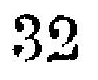32
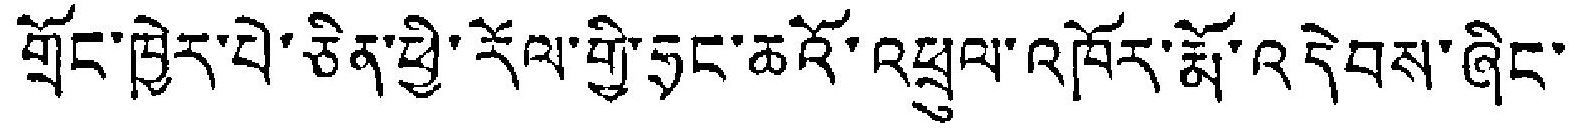གྲོང་ཁྱེར་པེ་ཅིན་ཕྱེ་རོལ་གྱི་ཧྲང་ཆའི་འཕྲལ་འཁོར་པོ་འདེབས་ཞིང་
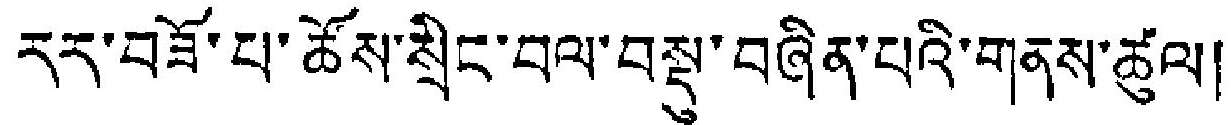རར་བཟོ་པ་ཚོས་སྲིང་བལ་བསྡུ་བཞིན་པའི་གནས་ཚུལ།
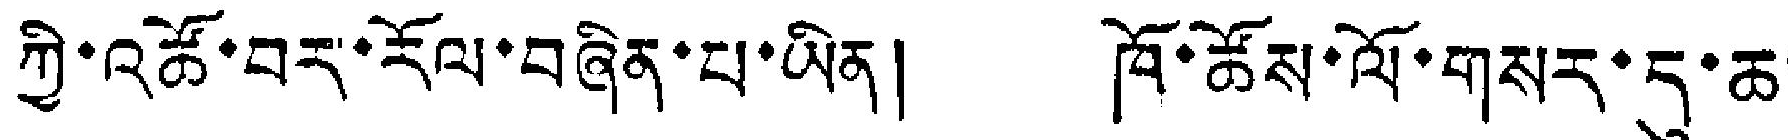ཀྱི་འཚོ་བར་རོལ་བཞིན་པ་ཡིན། ཁོ་ཚོས་ལོ་གསར་དུ་ཆ་
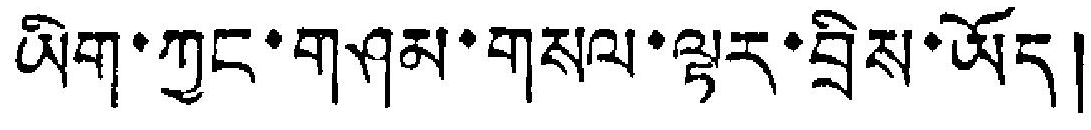ཡིག་ཀྱང་གཤམ་གསལ་ལྟར་བྲིས་ཡོད།
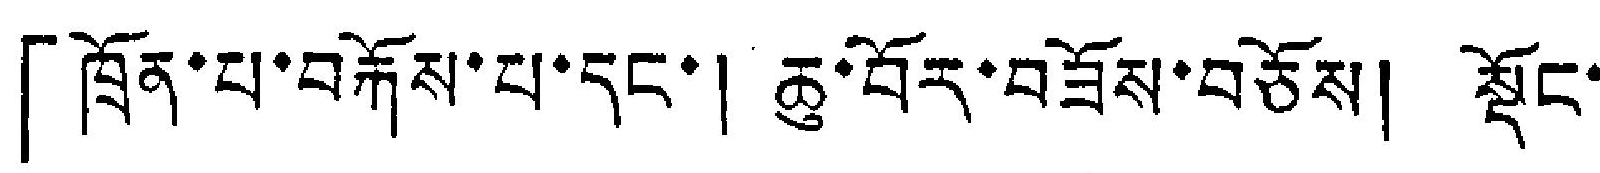「ཁྲོན་པ་བརྐོས་པ་དང་། ཆུ་བོར་བཟོས་བཅོས། སྡོང་
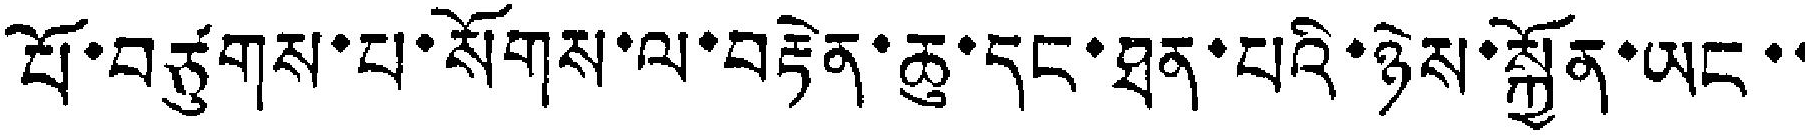པོ་བཙུགས་པ་སོགས་ལ་བརྟེན་ཆུ་དང་ཐན་པའི་ཉེས་སྐྱོན་ཨང་་
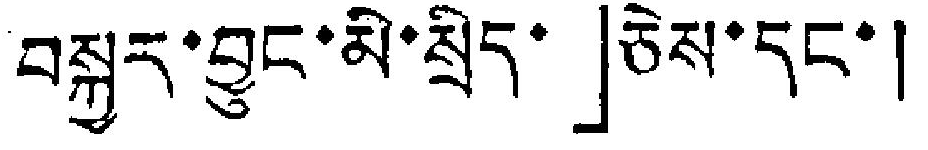བསྐྱར་བྱུང་མི་སྲིད་」ཅེས་དང་།
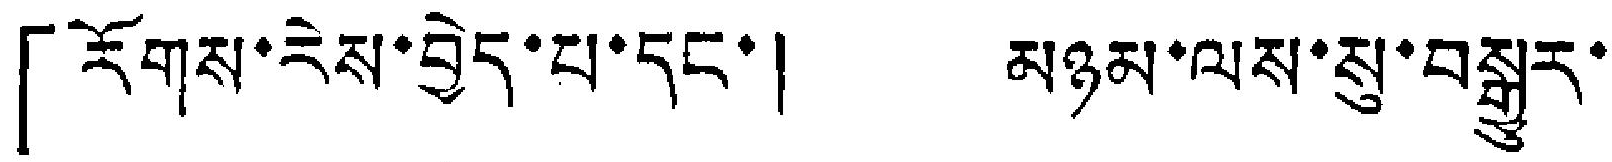「རོགས་རེས་བྱེད་པ་དང་། མཉམ་ལས་སུ་བསྒྱུར་
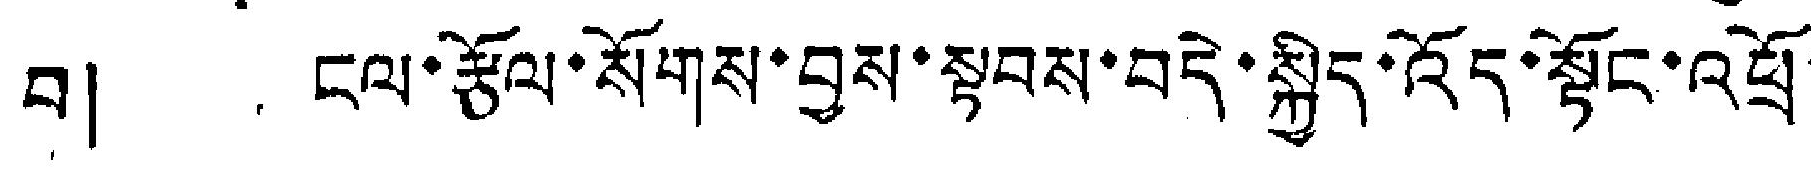བ། ངལ་རྩོལ་སོགས་བྱས་སྟབས་བདེ་སྐྱིད་འོད་སྟོང་འཕྲོ་
